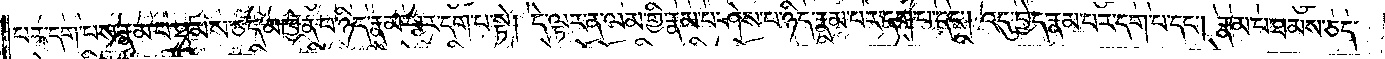པར་དག་པས་རྣམ་པ་ཐམས་ཅད་མཁྱེན་པ་ཉིད་རྣམ་པར་དག་པ་སྟེ། དེ་ལྟར་ན་ལམ་གྱི་རྣམ་པ་ཤེས་པ་ཉིད་རྣམ་པར་དག་པ་དང༌། འདུ་བྱེད་རྣམ་པར་དག་པ་དང༌། རྣམ་པ་ཐམས་ཅད་
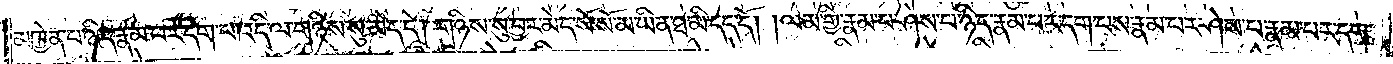མཁྱེན་པ་ཉིད་རྣམ་པར་དག་པ་འདི་ལ་གཉིས་སུ་མེད་དེ། གཉིས་སུ་བྱར་མེད་སོ་སོ་མ་ཡིན་ཐ་མི་དད་དོ། །ལམ་གྱི་རྣམ་པ་ཤེས་པ་ཉིད་རྣམ་པར་དག་པས་རྣམ་པར་ཤེས་པ་རྣམ་པར་དག་
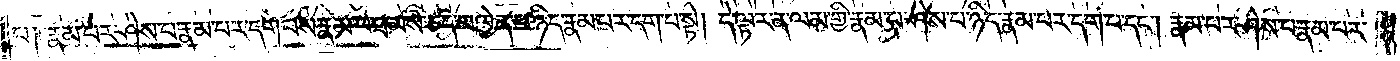པ༑ རྣམ་པར་ཤེས་པ་རྣམ་པར་དག་པས་རྣམ་པ་ཐམས་ཅད་མཁྱེན་པ་ཉིད་རྣམ་པར་དག་པ་སྟེ། དེ་ལྟར་ན་ལམ་གྱི་རྣམ་པ་ཤེས་པ་ཉིད་རྣམ་པར་དག་པ་དང༌། རྣམ་པར་ཤེས་པ་རྣམ་པར་
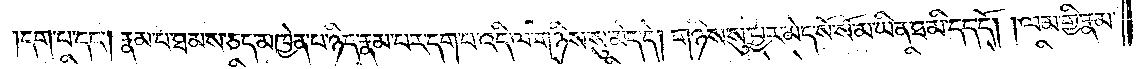དག་པ་དང༌། རྣམ་པ་ཐམས་ཅད་མཁྱེན་པ་ཉིད་རྣམ་པར་དག་པ་འདི་ལ་གཉིས་སུ་མེད་དེ། གཉིས་སུ་བྱར་མེད་སོ་སོ་མ་ཡིན་ཐ་མི་དད་དོ། །ལམ་གྱི་རྣམ་
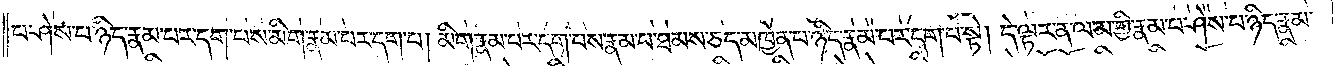པ་ཤེས་པ་ཉིད་རྣམ་པར་དག་པས་མིག་རྣམ་པར་དག་པ། མིག་རྣམ་པར་དག་པས་རྣམ་པ་ཐམས་ཅད་མཁྱེན་པ་ཉིད་རྣམ་པར་དག་པ་སྟེ། དེ་ལྟར་ན་ལམ་གྱི་རྣམ་པ་ཤེས་པ་ཉིད་རྣམ་
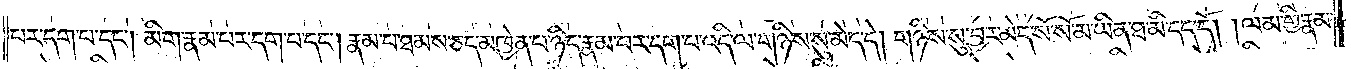པར་དག་པ་དང༌། མིག་རྣམ་པར་དག་པ་དང༌། རྣམ་པ་ཐམས་ཅད་མཁྱེན་པ་ཉིད་རྣམ་པར་དག་པ་འདི་ལ་གཉིས་སུ་མེད་དེ། གཉིས་སུ་བྱར་མེད་སོ་སོ་མ་ཡིན་ཐ་མི་དད་དོ། །ལམ་གྱི་རྣམ་
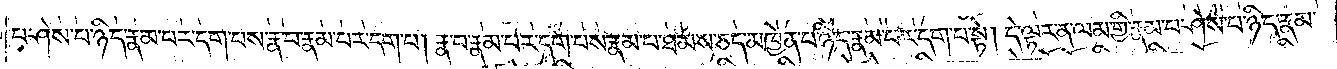པ་ཤེས་པ་ཉིད་རྣམ་པར་དག་པས་རྣ་བ་རྣམ་པར་དག་པ། རྣ་བ་རྣམ་པར་དག་པས་རྣམ་པ་ཐམས་ཅད་མཁྱེན་པ་ཉིད་རྣམ་པར་དག་པ་སྟེ། དེ་ལྟར་ན་ལམ་གྱི་རྣམ་པ་ཤེས་པ་ཉིད་རྣམ་
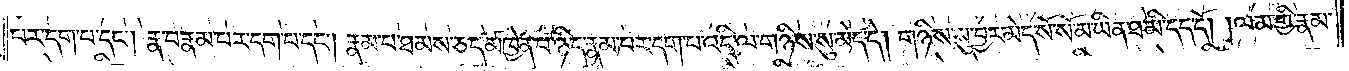པར་དག་པ་དང༌། རྣ་བ་རྣམ་པར་དག་པ་དང༌། རྣམ་པ་ཐམས་ཅད་མཁྱེན་པ་ཉིད་རྣམ་པར་དག་པ་འདི་ལ་གཉིས་སུ་མེད་དེ། གཉིས་སུ་བྱར་མེད་སོ་སོ་མ་ཡིན་ཐ་མི་དད་དོ། །ལམ་གྱི་རྣམ་
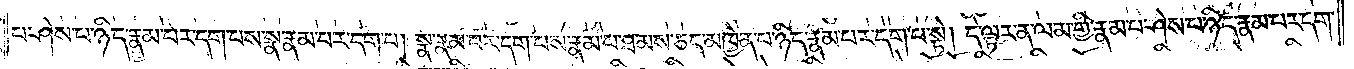པ་ཤེས་པ་ཉིད་རྣམ་པར་དག་པས་སྣ་རྣམ་པར་དག་པ། སྣ་རྣམ་པར་དག་པས་རྣམ་པ་ཐམས་ཅད་མཁྱེན་པ་ཉིད་རྣམ་པར་དག་པ་སྟེ། དེ་ལྟར་ན་ལམ་གྱི་རྣམ་པར་ཤེས་པ་ཉིད་རྣམ་པར་དག་
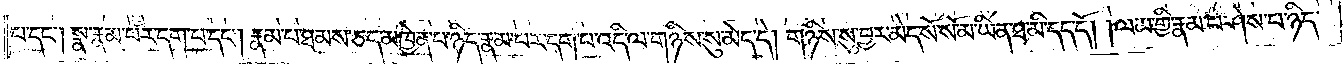པ་དང༌། སྣ་རྣམ་པར་དག་པ་དང༌། རྣམ་པ་ཐམས་ཅད་མཁྱེན་པ་ཉིད་རྣམ་པར་དག་པ་འདི་ལ་གཉིས་སུ་མེད་དེ། གཉིས་སུ་བྱར་མེད་སོ་སོ་མ་ཡིན་ཐ་མི་དད་དོ། །ལམ་གྱི་རྣམ་པ་ཤེས་པ་ཉིད་
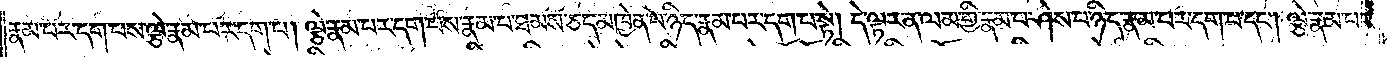རྣམ་པར་དག་པས་ལྕེ་རྣམ་པར་དག་པ། ལྕེ་རྣམ་པར་དག་པས་རྣམ་པ་ཐམས་ཅད་མཁྱེན་པ་ཉིད་རྣམ་པར་དག་པ་སྟེ། དེ་ལྟར་ན་ལམ་གྱི་རྣམ་པ་ཤེས་པ་ཉིད་རྣམ་པར་དག་པ་དང༌། ལྕེ་རྣམ་པར་
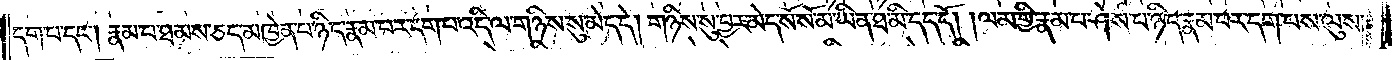དག་པ་དང༌། རྣམ་པ་ཐམས་ཅད་མཁྱེན་པ་ཉིད་རྣམ་པར་དག་པ་འདི་ལ་གཉིས་སུ་མེད་དེ། གཉིས་སུ་བྱར་མེད་སོ་སོ་མ་ཡིན་ཐ་མི་དད་དོ། །ལམ་གྱི་རྣམ་པ་ཤེས་པ་ཉིད་རྣམ་པར་དག་པས་ལུས་
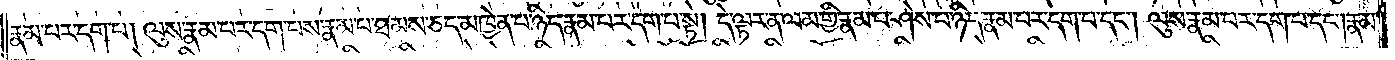རྣམ་པར་དག་པ། ལུས་རྣམ་པར་དག་པས་རྣམ་པ་ཐམས་ཅད་མཁྱེན་པ་ཉིད་རྣམ་པར་དག་པ་སྟེ། དེ་ལྟར་ན་ལམ་གྱི་རྣམ་པ་ཤེས་པ་ཉིད་རྣམ་པར་དག་པ་དང༌། ལུས་རྣམ་པར་དག་པ་དང༌། རྣམ་
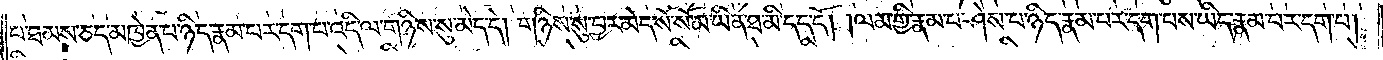པ་ཐམས་ཅད་མཁྱེན་པ་ཉིད་རྣམ་པར་དག་པ་འདི་ལ་གཉིས་སུ་མེད་དེ། གཉིས་སུ་བྱར་མེད་སོ་སོ་མ་ཡིན་ཐ་མི་དད་དོ། །ལམ་གྱི་རྣམ་པ་ཤེས་པ་ཉིད་རྣམ་པར་དག་པས་ཡིད་རྣམ་པར་དག་པ།
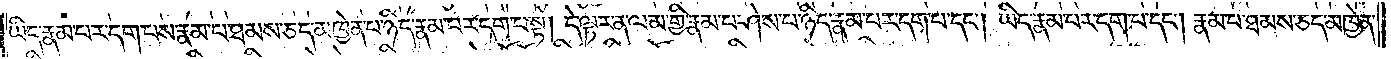ཡིད་རྣམ་པར་དག་པས་རྣམ་པ་ཐམས་ཅད་མཁྱེན་པ་ཉིད་རྣམ་པར་དག་པ་སྟེ། དེ་ལྟར་ན་ལམ་གྱི་རྣམ་པ་ཤེས་པ་ཉིད་རྣམ་པར་དག་པ་དང༌། ཡིད་རྣམ་པར་དག་པ་དང༌། རྣམ་པ་ཐམས་ཅད་མཁྱེན་
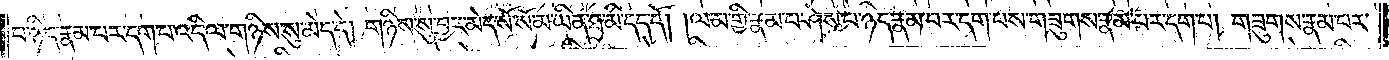པ་ཉིད་རྣམ་པར་དག་པ་འདི་ལ་གཉིས་སུ་མེད་དེ། གཉིས་སུ་བྱར་མེད་སོ་སོ་མ་ཡིན་ཐ་མི་དད་དོ། །ལམ་གྱི་རྣམ་པ་ཤེས་པ་ཉིད་རྣམ་པར་དག་པས་གཟུགས་རྣམ་པར་དག་པ། གཟུགས་རྣམ་པར་
